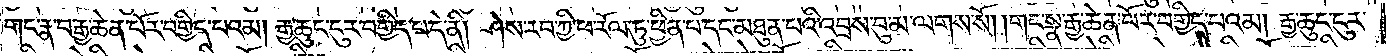གང་རྣ་བ་རྒྱ་ཆེན་པོར་བགྱིད་པའམ། རྒྱ་ཆུང་ངུར་བགྱིད་པ་དེ་ནི། ཤེས་རབ་ཀྱི་ཕ་རོལ་ཏུ་ཕྱིན་པ་དང་མཐུན་པའི་འབྲས་བུ་མ་ལགས་སོ། །གང་སྣ་རྒྱ་ཆེན་པོར་བགྱིད་པའམ། རྒྱ་ཆུང་ངུར་
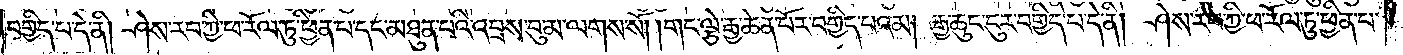བགྱིད་པ་དེ་ནི། ཤེས་རབ་ཀྱི་ཕ་རོལ་ཏུ་ཕྱིན་པ་དང་མཐུན་པའི་འབྲས་བུ་མ་ལགས་སོ། །གང་ལྕེ་རྒྱ་ཆེན་པོར་བགྱིད་པའམ། རྒྱ་ཆུང་ངུར་བགྱིད་པ་དེ་ནི། ཤེས་རབ་ཀྱི་ཕ་རོལ་ཏུ་ཕྱིན་པ་
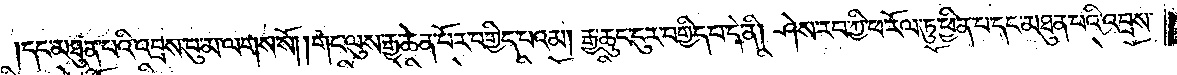དང་མཐུན་པའི་འབྲས་བུ་མ་ལགས་སོ། །གང་ལུས་རྒྱ་ཆེན་པོར་བགྱིད་པའམ། རྒྱ་ཆུང་ངུར་བགྱིད་པ་དེ་ནི། ཤེས་རབ་ཀྱི་ཕ་རོལ་ཏུ་ཕྱིན་པ་དང་མཐུན་པའི་འབྲས་
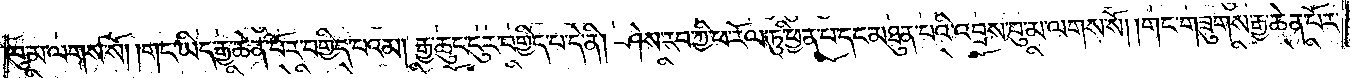བུ་མ་ལགས་སོ། །གང་ཡིད་རྒྱ་ཆེན་པོར་བགྱིད་པའམ། རྒྱ་ཆུང་ངུར་བགྱིད་པ་དེ་ནི། ཤེས་རབ་ཀྱི་ཕ་རོལ་ཏུ་ཕྱིན་པ་དང་མཐུན་པའི་འབྲས་བུ་མ་ལགས་སོ། །གང་གཟུགས་རྒྱ་ཆེན་པོར་
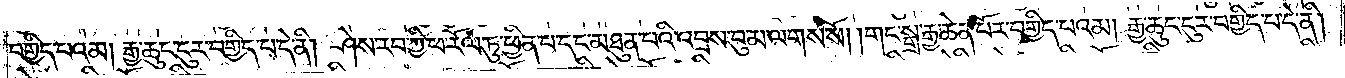བགྱིད་པའམ། རྒྱ་ཆུང་ངུར་བགྱིད་པ་དེ་ནི། ཤེས་རབ་ཀྱི་ཕ་རོལ་ཏུ་ཕྱིན་པ་དང་མཐུན་པའི་འབྲས་བུ་མ་ལགས་སོ། །གང་སྒྲ་རྒྱ་ཆེན་པོར་བགྱིད་པའམ། རྒྱ་ཆུང་ངུར་བགྱིད་པ་དེ་ནི།
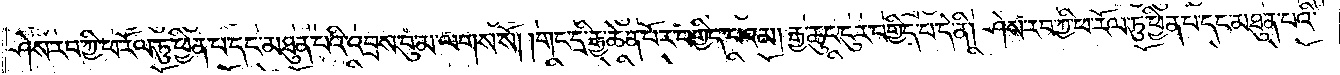ཤེས་རབ་ཀྱི་ཕ་རོལ་ཏུ་ཕྱིན་པ་དང་མཐུན་པའི་འབྲས་བུ་མ་ལགས་སོ། །གང་དྲི་རྒྱ་ཆེན་པོར་བགྱིད་པའམ། རྒྱ་ཆུང་ངུར་བགྱིད་པ་དེ་ནི། ཤེས་རབ་ཀྱི་ཕ་རོལ་ཏུ་ཕྱིན་པ་དང་མཐུན་པའི་
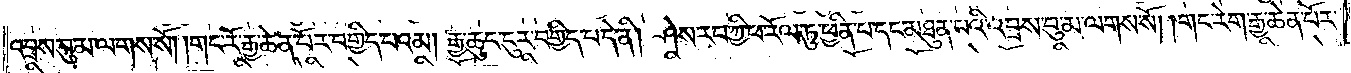འབྲས་བུ་མ་ལགས་སོ། །གང་རོ་རྒྱ་ཆེན་པོར་བགྱིད་པའམ། རྒྱ་ཆུང་ངུར་བགྱིད་པ་དེ་ནི། ཤེས་རབ་ཀྱི་ཕ་རོལ་ཏུ་ཕྱིན་པ་དང་མཐུན་པའི་འབྲས་བུ་མ་ལགས་སོ། །གང་རེག་རྒྱ་ཆེན་པོར་
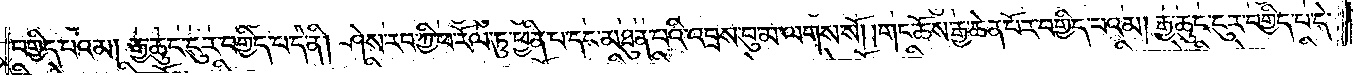བགྱིད་པའམ། རྒྱ་ཆུང་ངུར་བགྱིད་པ་དེ་ནི། ཤེས་རབ་ཀྱི་ཕ་རོལ་ཏུ་ཕྱིན་པ་དང་མཐུན་པའི་འབྲས་བུ་མ་ལགས་སོ། །གང་ཆོས་རྒྱ་ཆེན་པོར་བགྱིད་པའམ། རྒྱ་ཆུང་ངུར་བགྱིད་པ་དེ་
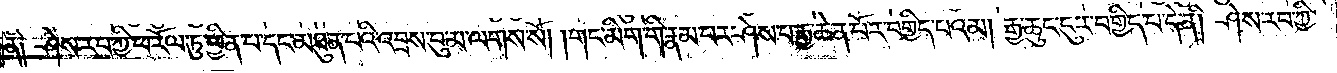ནི༑ ཤེས་རབ་ཀྱི་ཕ་རོལ་ཏུ་ཕྱིན་པ་དང་མཐུན་པའི་འབྲས་བུ་མ་ལགས་སོ། །གང་མིག་གི་རྣམ་པར་ཤེས་པ་རྒྱ་ཆེན་པོར་བགྱིད་པའམ། རྒྱ་ཆུང་ངུར་བགྱིད་པ་དེ་ནི། ཤེས་རབ་ཀྱི་
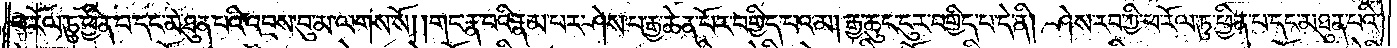ཕ་རོལ་ཏུ་ཕྱིན་པ་དང་མཐུན་པའི་འབྲས་བུ་མ་ལགས་སོ། །གང་རྣ་བའི་རྣམ་པར་ཤེས་པ་རྒྱ་ཆེན་པོར་བགྱིད་པའམ། རྒྱ་ཆུང་ངུར་བགྱིད་པ་དེ་ནི། ཤེས་རབ་ཀྱི་ཕ་རོལ་ཏུ་ཕྱིན་པ་དང་མཐུན་པའི་
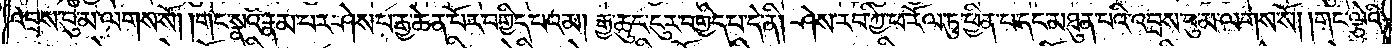འབྲས་བུ་མ་ལགས་སོ། །གང་སྣའི་རྣམ་པར་ཤེས་པ་རྒྱ་ཆེན་པོར་བགྱིད་པའམ། རྒྱ་ཆུང་ངུར་བགྱིད་པ་དེ་ནི། ཤེས་རབ་ཀྱི་ཕ་རོལ་ཏུ་ཕྱིན་པ་དང་མཐུན་པའི་འབྲས་བུ་མ་ལགས་སོ། །གང་ལྕེའི་
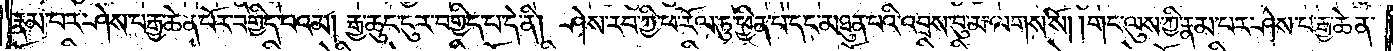རྣམ་པར་ཤེས་པ་རྒྱ་ཆེན་པོར་བགྱིད་པའམ། རྒྱ་ཆུང་ངུར་བགྱིད་པ་དེ་ནི། ཤེས་རབ་ཀྱི་ཕ་རོལ་ཏུ་ཕྱིན་པ་དང་མཐུན་པའི་འབྲས་བུ་མ་ལགས་སོ། །གང་ལུས་ཀྱི་རྣམ་པར་ཤེས་པ་རྒྱ་ཆེན་
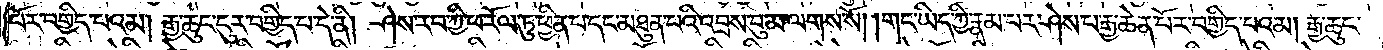པོར་བགྱིད་པའམ། རྒྱ་ཆུང་ངུར་བགྱིད་པ་དེ་ནི། ཤེས་རབ་ཀྱི་ཕ་རོལ་ཏུ་ཕྱིན་པ་དང་མཐུན་པའི་འབྲས་བུ་མ་ལགས་སོ། །གང་ཡིད་ཀྱི་རྣམ་པར་ཤེས་པ་རྒྱ་ཆེན་པོར་བགྱིད་པའམ། རྒྱ་ཆུང་
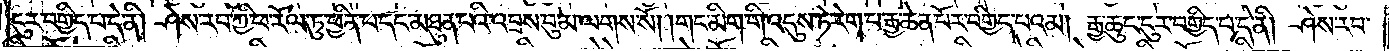ངུར་བགྱིད་པ་དེ་ནི། ཤེས་རབ་ཀྱི་ཕ་རོལ་ཏུ་ཕྱིན་པ་དང་མཐུན་པའི་འབྲས་བུ་མ་ལགས་སོ། །གང་མིག་གི་འདུས་ཏེ་རེག་པ་རྒྱ་ཆེན་པོར་བགྱིད་པའམ། རྒྱ་ཆུང་ངུར་བགྱིད་པ་དེ་ནི། ཤེས་རབ་
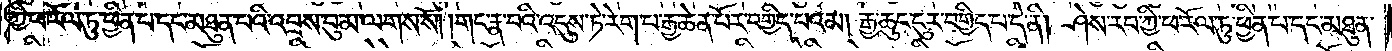ཀྱི་ཕ་རོལ་ཏུ་ཕྱིན་པ་དང་མཐུན་པའི་འབྲས་བུ་མ་ལགས་སོ། །གང་རྣ་བའི་འདུས་ཏེ་རེག་པ་རྒྱ་ཆེན་པོར་བགྱིད་པའམ། རྒྱ་ཆུང་ངུར་བགྱིད་པ་དེ་ནི། ཤེས་རབ་ཀྱི་ཕ་རོལ་ཏུ་ཕྱིན་པ་དང་མཐུན་
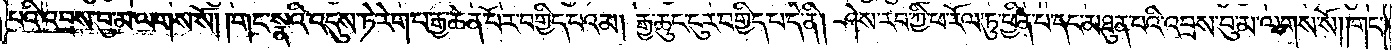པའི་འབྲས་བུ་མ་ལགས་སོ། །གང་སྣའི་འདུས་ཏེ་རེག་པ་རྒྱ་ཆེན་པོར་བགྱིད་པའམ། རྒྱ་ཆུང་ངུར་བགྱིད་པ་དེ་ནི། ཤེས་རབ་ཀྱི་ཕ་རོལ་ཏུ་ཕྱིན་པ་དང་མཐུན་པའི་འབྲས་བུ་མ་ལགས་སོ། །གང་
